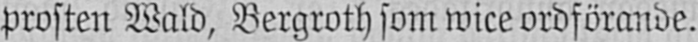prosten Wald, Bergroth som wice ordförande.
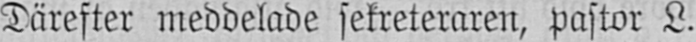Därefter meddelade sekreteraren, Pastor L.
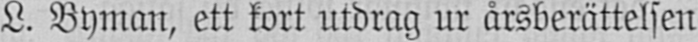L. Byman, ett kort utdrag ur årsberättelsen
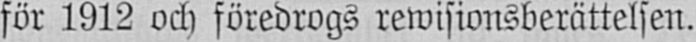för 1912 och föredrogs rewisionsberättelsen.
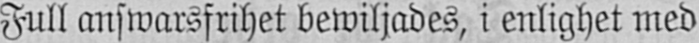Full answarsfrihet bewiljades, i enlighet med
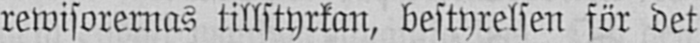rewisorernas tillstyrkan, bestyrelsen för det
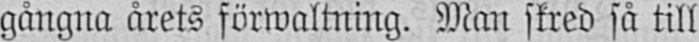gångna årets förwaltning. Man skred så till
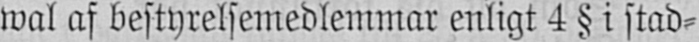wal af bestyrelsemedlemmar enligt 4 § i stad-
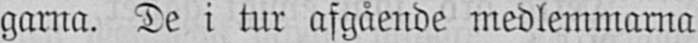garna. De i tur afgående medlemmarna
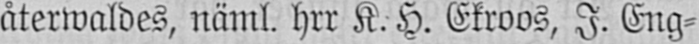återwaldes, näml. hrr K. H. Ekroos, I. Eng-
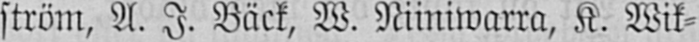ström, A. I. Bäck, W. Niiniwarra, K. Wik-
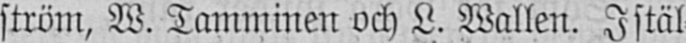ström, W. Tamminen och L. Wallen. I stäl-
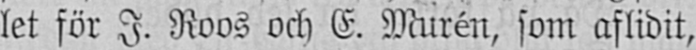let för I. Roos och E. Murén, som aflidit,
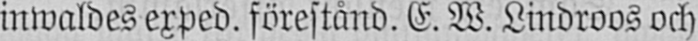inwaldes exped. förestånd. E. W. Lindroos och
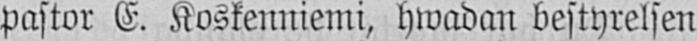pastor E. Koskenniemi, hwadan bestyrelsen
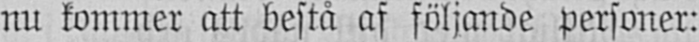nu kommer att bestå af följande personer:
